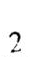2
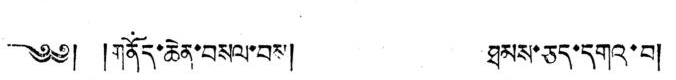༄༅། །གནོད་ཆེན་བསལ་བས། ཐམས་ཅད་དགའ་བ།
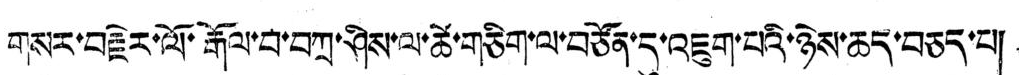གསར་བརྗེར་ལོ་རྒོལ་བ་བཀྲ་ཤིས་ལ་ཚེ་གཅིག་ལ་བཙོན་དུ་འཇུག་པའི་ཉེས་ཆད་བཅད་པ།
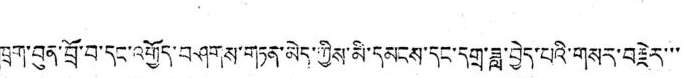ཁྲག་བུན་བྲོ་བ་དང་འགྱོད་བཤགས་གཏན་མེད་ཀྱིས་མི་དམངས་དང་དགྲ་ཟླ་བྱེད་པའི་གསར་བརྗེར་་་
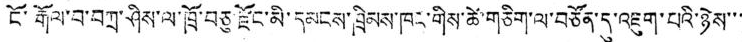ངོ་རྒོལ་བ་བཀྲ་ཤིས་ལ་ཁྲོ་བཅུ་རྫོང་མི་དམངས་ཁྲིམས་ཁང་གིས་ཚེ་གཅིག་ལ་བཙོན་དུ་འཇུག་པའི་ཉེས་་་
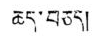ཆད་བཅད།
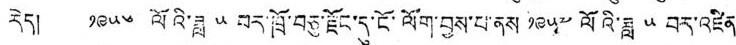རེད། ༡༩༥༦ ལོའི་ཟླ ༥ བར་ཁྲོ་བཅུ་རྫོང་དུ་ངོ་ལོག་བྱས་པ་ནས ༡༩༥༧ ལོའི་ཟླ ༥ བར་འཛིན་
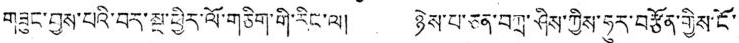གཟུང་བྱས་པའི་བར་སྔ་ཕྱིར་ལོ་གཅིག་གི་རིང་ལ། ཉེས་པ་ཅན་གཀྲ་ཤིས་ཀྱིས་ཧུར་བརྩོན་གྱིས་ངོ་
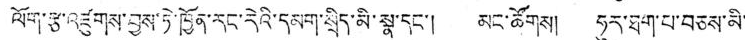ལོག་རྩ་འཛུགས་བྱས་ཏེ་ཁྱོན་རང་རེའི་དམག་སྲིད་མི་སྣ་དང་། མང་ཚོགས། ཧུར་ཐག་པ་བཅས་མི་
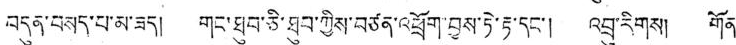བདུན་བསད་པ་མ་ཟད། གང་ཐུབ་ཅི་ཐུབ་ཀྱིས་བཙན་འཕྲོག་བྱས་ཏེ་རྟ་དང་། འབྲུ་རིགས། གོན་
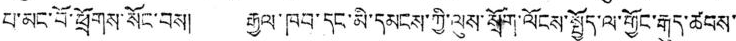པ་མང་བོ་ཕྲོགས་སོང་བས། རྒྱལ་ཁབ་དང་མི་དམངས་ཀྱི་ལུས་སྲོག་ལོངས་སྤྱོད་ལ་གྱོང་རྒུལ་ཚབས་
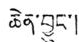ཆེན་བྱུང་།
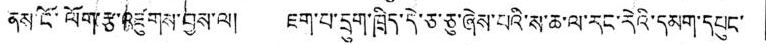ནས་ངོ་ལོག་རྩ་འཛུགས་བྱས་ལ། ཇག་པ་དྲུག་ཁྲིད་དེ་ཅ་ཅུ་ཞེས་པའི་ས་ཆ་ལ་རང་རེའི་དམག་དཔུང་
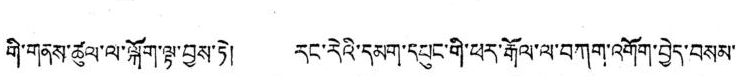གི་གནས་ཚལ་ལ་ལྐོག་ལྟ་བྱས་ཏེ། རང་རེའི་དམག་དཔུང་གི་ཕར་རྒོལ་ལ་བཀག་འགོག་བྱེད་བསམ་
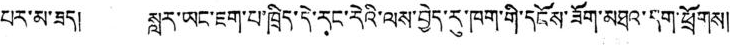པར་མ་ཟད། སླར་ཡང་ཇག་པ་ཁྲིད་དེ་རང་རེའི་ལས་བྱེད་རུ་ཁག་གི་དངོས་ཟོག་མཐའ་དག་ཕྲོགས།
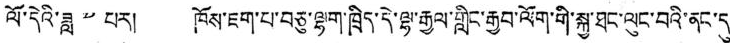ལོ་དེའི་ཟླ ༧ པར། ཁོས་ཇག་པ་བཅུ་ལྷག་ཁྲིད་དེ་ལྷ་རྒྱལ་གླིང་རྒྱབ་ལོག་གི་སྐྱ་ཐང་ལུང་བའི་ནང་དུ་
